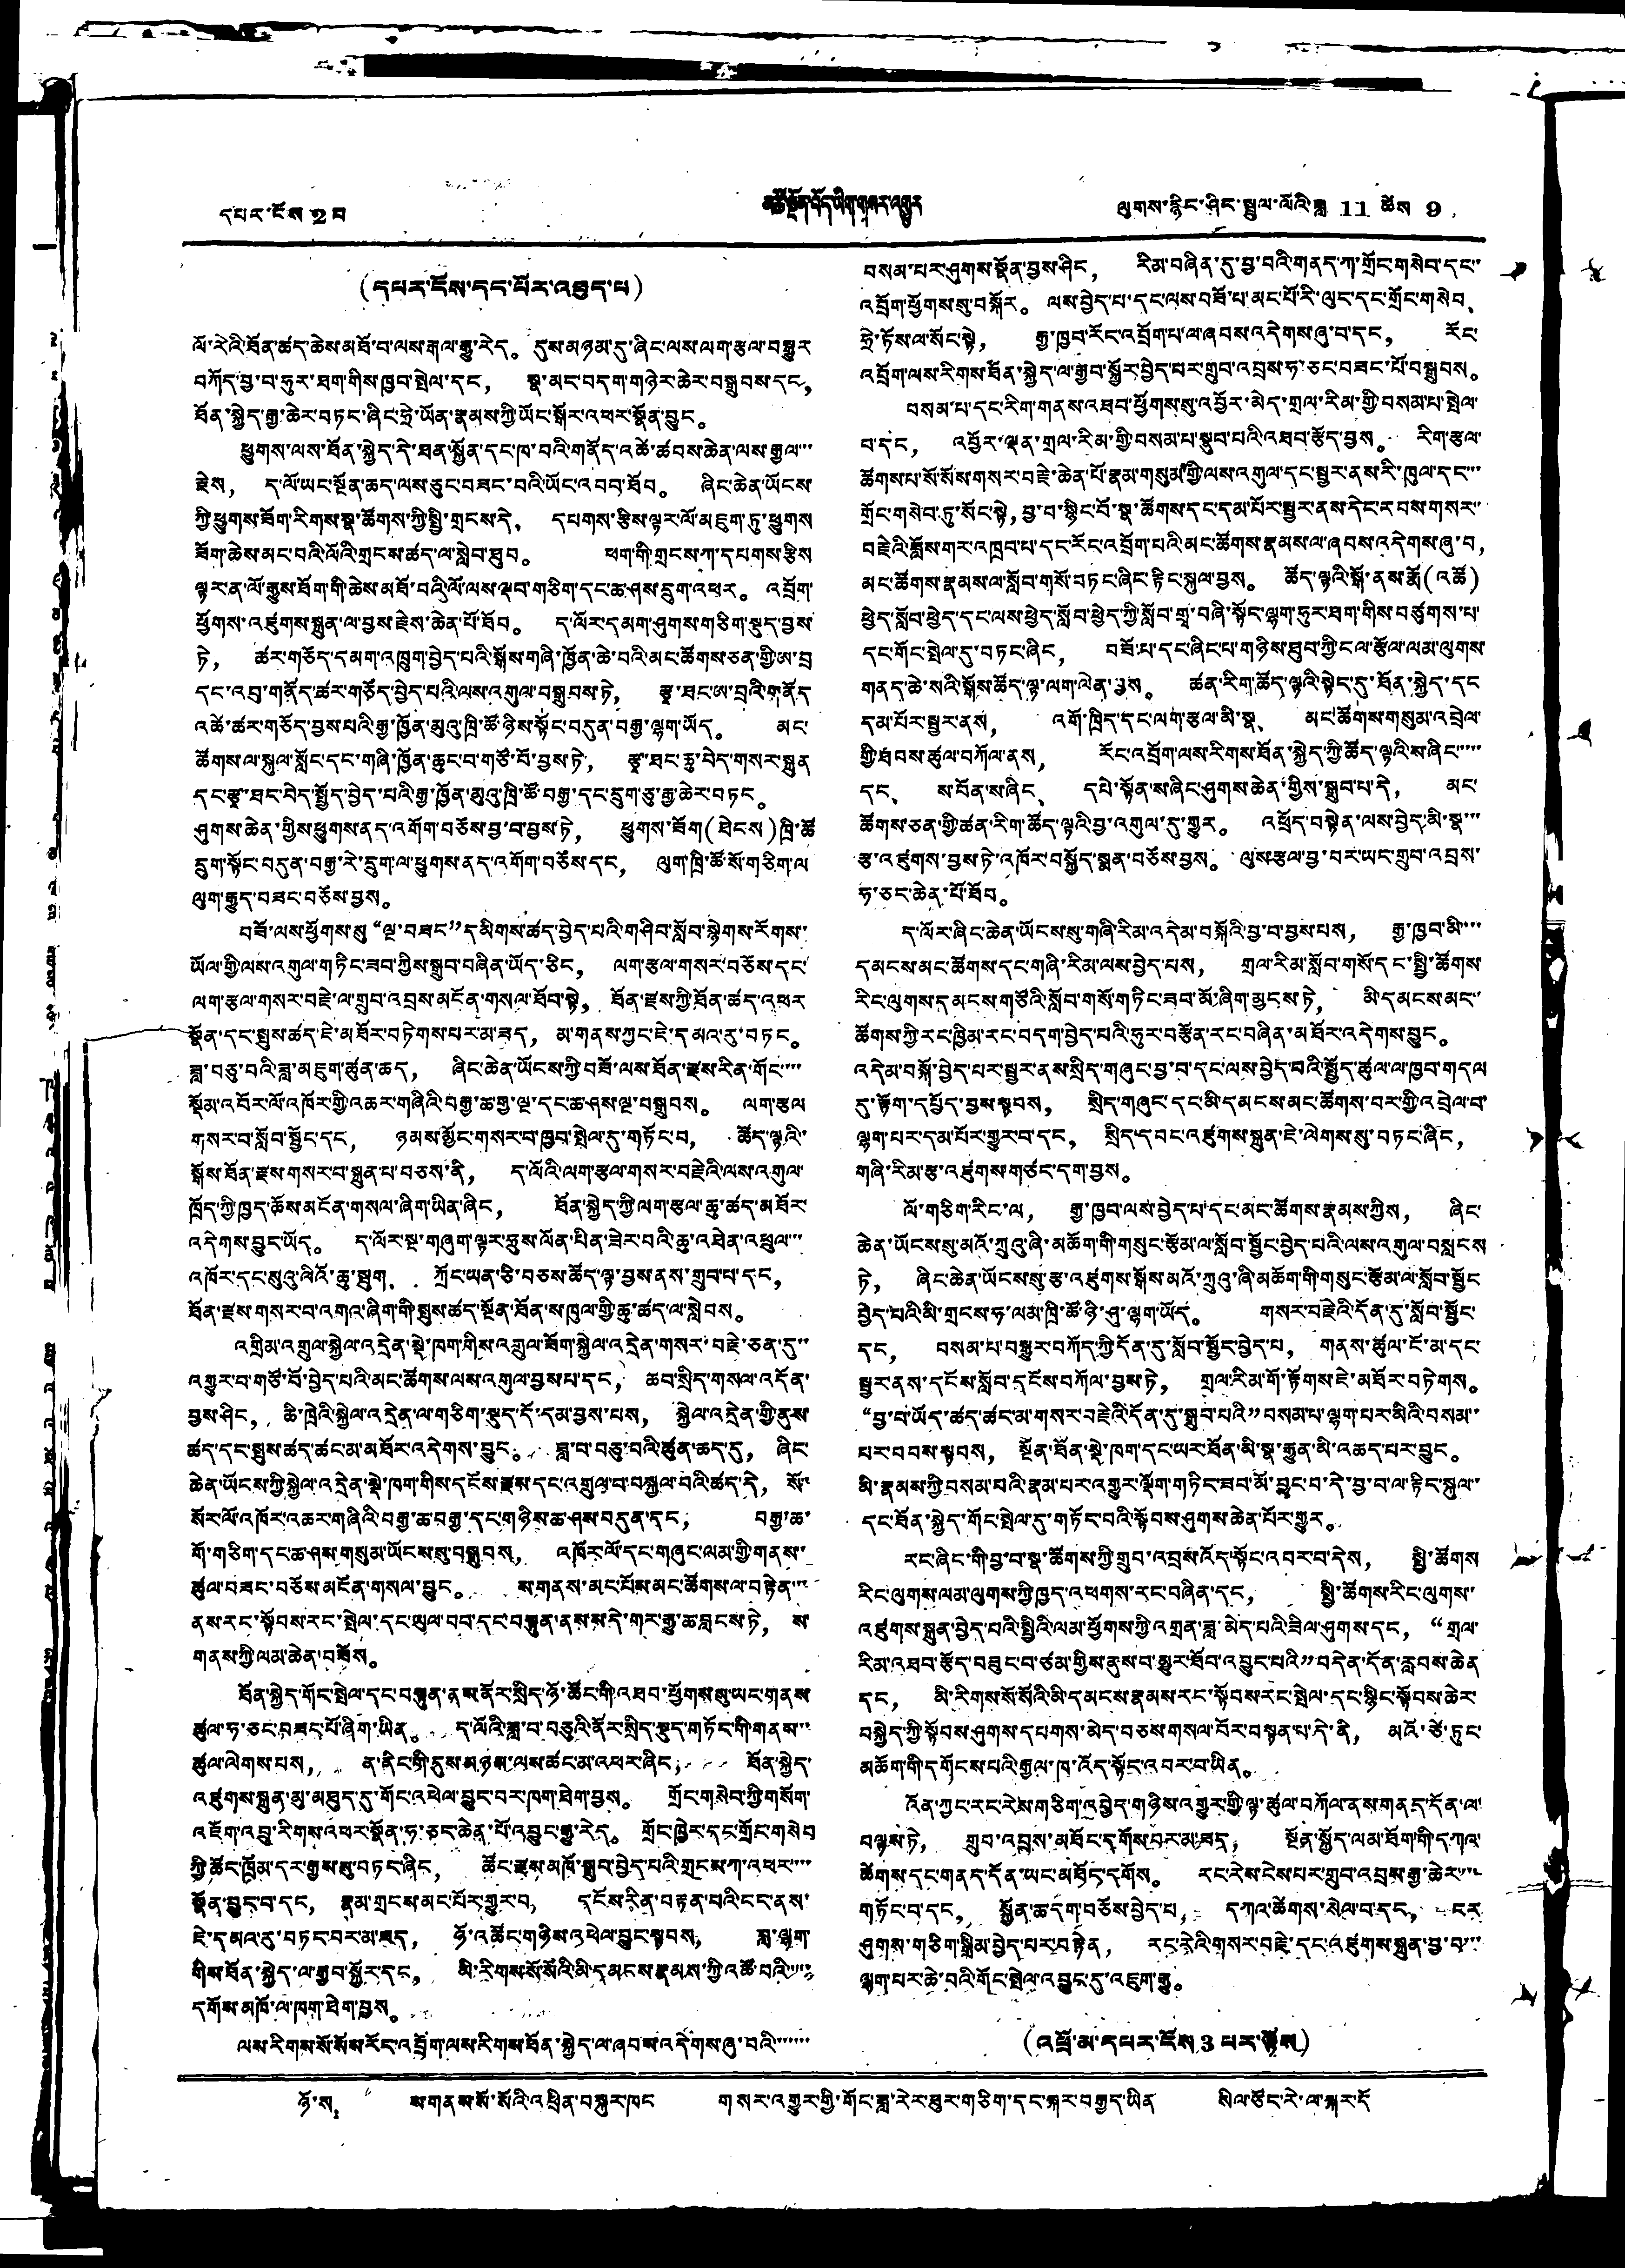དཔར་ངོས 2 པ མཚོ་སྔོན་བོད་ཡིག་གསར་འགྱུར ལུགས་རྙིང་ཤིང་སྤྲུལ་ལོའི་ཟླ 11 ཚེས 9
(དཔར་ངོས་དང་པོར་འཐུད་པ)
ལོ་རེའི་ཐོན་ཚད་ཆེས་མཐོ་བ་ལས་རྒལ་རྒྱུ་རེད。 དུས་མཉམ་དུ་ཞིང་ལས་ལག་རྩལ་བསྒྱུར
བཀོད་བྱ་བ་ཧུར་ཐག་གིས་ཁྱབ་སྤེལ་དང， སྣ་མང་བདག་གཉེར་ཆེར་བསྒྲུབས་དང，
ཐོན་སྐྱེད་རྒྱ་ཆེར་བཏང་ཞིང་ཧྲེ་ཡོན་རྣམས་ཀྱི་ཡོང་སྒོར་འཕར་སྣོན་བྱུང。
ཕྱུགས་ལས་ཐོན་སྐྱེད་དེ་ཐན་སྐྱོན་དང་ཁ་བའི་གནོད་འཚེ་ཚབས་ཆེན་ལས་རྒྱལ་་་
རྗེས， ད་ལོ་ཡང་སྔོན་ཆད་ལས་ཅུང་བཟང་བའི་ཡོང་འབབ་ཐོབ。 ཞིང་ཆེན་ཡོངས་
ཀྱི་ཕྱུགས་ཟོག་རིགས་སྣ་ཚོགས་ཀྱི་སྤྱི་གྲངས་དེ， དཔགས་རྩིས་ལྟར་ལོ་མཇུག་ཏུ་ཕྱུགས་
ཟོག་ཆེས་མང་བའི་ལོའི་གྲངས་ཚད་ལ་སླེབ་ཐུབ。 ཕག་གི་གྲངས་ཀ་དཔགས་རྩིས་
ལྟར་ན་ལོ་རྒྱུས་ཐོག་གི་ཆེས་མཐོ་བའི་ལོ་ལས་ལྡབ་གཅིག་དང་ཆ་ཤས་དྲུག་འཕར。 འབྲོག་
ཕྱོགས་འཛུགས་སྐྲུན་ལ་བྱས་རྗེས་ཆེན་པོ་ཐོབ。 ད་ལོར་དམག་ཤུགས་གཅིག་སྡུད་བྱས་
ཏེ， ཚར་གཅོད་དམག་འཁྲུག་བྱེད་པའི་སྒོས་གཞི་ཁྱོན་ཆེ་བའི་མང་ཚོགས་ཅན་གྱི་ཨ་བྲ་
དང་འབུ་གནོད་ཚར་གཅོད་བྱེད་པའི་ལས་འགུལ་བསྒྲུབས་ཏེ， རྩྭ་ཐང་ཨ་བྲའི་གནོད་
འཚེ་ཚར་གཅོད་བྱས་པའི་རྒྱ་ཁྱོན་མུའུ་ཁྲི་ཚོ་ཉིས་སྟོང་བདུན་བརྒྱ་ལྷག་ཡོད。 མང་
ཚོགས་ལ་སྐུལ་སློང་དང་གཞི་ཁྱོན་ཆུང་བ་གཙོ་བོ་བྱས་ཏེ， རྩྭ་ཐང་ཆུ་བེད་གསར་སྐྲུན་
དང་རྩྭ་ཐང་བེད་སྤྱོད་བྱེད་པའི་རྒྱ་ཁྱོན་མུའུ་ཁྲི་ཚོ་བརྒྱ་དང་དྲུག་ཅུ་རྒྱ་ཆེར་བཏང。
ཤུགས་ཆེན་གྱིས་ཕྱུགས་ནད་འགོག་བཅོས་བྱ་བ་བྱས་ཏེ， ཕྱུགས་ཟོག (ཐེངས) ཁྲི་ཚོ་
དྲུག་སྟོང་བདུན་བརྒྱ་རེ་དྲུག་ལ་ཕྱུགས་ནད་འགོག་བཅོས་དང， ལུག་ཁྲི་ཚོ་སོ་གཅིག་ལ་
ལུག་རྒྱུད་བཟང་བཅོས་བྱས。
བཟོ་ལས་ཕྱོགས་སུ“ལྔ་བཟང”དམིགས་ཚད་བྱེད་པའི་གཤིབ་སློབ་སྙེགས་རོགས་་
ཡོལ་གྱི་ལས་འགུལ་གཏིང་ཟབ་ཀྱིས་སྒྲུབ་བཞིན་ཡོད་ཅིང， ལག་རྩལ་གསར་བཅོས་དང་
ལག་རྩལ་གསར་བརྗེ་ལ་གྲུབ་འབྲས་མངོན་གསལ་ཐོབ་སྟེ， ཐོན་རྫས་ཀྱི་ཐོན་ཚད་འཕར
སྣོན་དང་སྤུས་ཚད་ཇེ་མཐོར་བཏེགས་པར་མ་ཟད， མ་གནས་ཀྱང་ཇེ་དམའ་རུ་བཏང。
ཟླ་བཅུ་བའི་ཟླ་མཇུག་ཚུན་ཆད， ཞིང་ཆེན་ཡོངས་ཀྱི་བཟོ་ལས་ཐོན་རྫས་རིན་གོང་་་་
སྡོམ་འབོར་ལོ་འཁོར་གྱི་འཆར་གཞིའི་བརྒྱ་ཆ་གྱ་ལྔ་དང་ཆ་ཤས་ལྔ་བསྒྲུབས。 ལག་རྩལ
གསར་བ་སློབ་སྦྱོང་དང， ཉམས་མྱོང་གསར་བ་ཁྱབ་སྤེལ་དུ་གཏོང་བ， ཚོད་ལྟའི་་
སྒོས་ཐོན་རྫས་གསར་བ་སྐྲུན་པ་བཅས་ནི， ད་ལོའི་ལག་རྩལ་གསར་བརྗེའི་ལས་འགུལ་
ཁྲོད་ཀྱི་ཁྱད་ཆོས་མངོན་གསལ་ཞིག་ཡིན་ཞིང， ཐོན་སྐྱེད་ཀྱི་ལག་རྩལ་ཆུ་ཚད་མཐོར་
འདེགས་བྱུང་ཡོད。 ད་ལོར་སྔ་གཞུག་ལྟར་ཧུས་ལོན་པིན་ཟེར་བའི་ཆུ་འཐེན་འཕྲུལ་་་
འཁོར་དང་སུའུ་ལིའོ་ཆུ་སྦུག， ཀྲོང་ཡན་ཅི་བཅས་ཚོད་ལྟ་བྱས་ནས་གྲུབ་པ་དང，
ཐོན་རྫས་གསར་བ་འགའ་ཞིག་གི་སྤུས་ཚད་སྔོན་ཐོན་ས་ཁུལ་གྱི་ཆུ་ཚད་ལ་སླེབས。
འགྲིམ་འགྲུལ་སྐྱེལ་འདྲེན་སྡེ་ཁག་གིས་འགྲུལ་ཟོག་སྐྱེལ་འདྲེན་གསར་བརྗེ་ཅན་དུ་་
འགྱུར་བ་གཙོ་བོ་བྱེད་པའི་མང་ཚོགས་ལས་འགུལ་བྱས་པ་དང， ཆབ་སྲིད་གསལ་འདོན་
བྱས་ཤིང， ཆི་ཁྲེའི་སྐྱེལ་འདྲེན་ལ་གཅིག་སྡུད་དོ་དམ་བྱས་པས， སྐྱེལ་འདྲེན་གྱི་ནུས་
ཚད་དང་སྤུས་ཚད་ཚང་མ་མཐོར་འདེགས་བྱུང。 ཟླ་བ་བཅུ་བའི་ཚུན་ཆད་དུ， ཞིང་
ཆེན་ཡོངས་ཀྱི་སྐྱེལ་འདྲེན་སྡེ་ཁག་གིས་དངོས་རྫས་དང་འགྲུལ་བ་བསྐྱལ་བའི་ཚད་དེ， སོ་
སོར་ལོ་འཁོར་འཆར་གཞིའི་བརྒྱ་ཆ་བརྒྱ་དང་གཉིས་ཆ་ཤས་བདུན་དང， བརྒྱ་ཆ་
གོ་གཅིག་དང་ཆ་ཤས་གསུམ་ཡོངས་སུ་བསྒྲུབས， འཁོར་ལོ་དང་གཞུང་ལམ་གྱི་གནས་
ཚུལ་བཟང་བཅོས་མངོན་གསལ་བྱུང。 ས་གནས་མང་པོས་མང་ཚོགས་ལ་བརྟེན་་་་
ནས་རང་སྟོབས་རང་སྤེལ་དང་ཡུལ་བབ་དང་བསྟུན་ནས་ས་དེ་གར་རྒྱུ་ཆ་བླངས་ཏེ， ས་
གནས་ཀྱི་ལམ་ཆེན་བཟོས。
ཐོན་སྐྱེད་གོང་སྤེལ་དང་བསྟུན་ནས་ནོར་སྲིད་ཉོ་ཚོང་གི་འཐབ་ཕྱོགས་སུ་ཡང་གནས་
ཚུལ་ཧ་ཅང་བཟང་པོ་ཞིག་ཡིན。 ད་ལོའི་ཟླ་བ་བཅུའི་ནོར་སྲིད་སྡུད་གཏོང་གི་གནས་་
ཚུལ་ལེགས་པས， ན་ནིང་གི་དུས་མཉམ་ལས་ཚང་མ་འཕར་ཞིང， ཐོན་སྐྱེད་
འཛུགས་སྐྲུན་མུ་མཐུད་དུ་གོང་འཕེལ་བྱུང་བར་ཁག་ཐེག་བྱས。 གྲོང་གསེབ་ཀྱི་གསོག་
འཇོག་འབྲུ་རིགས་འཕར་སྣོན་ཧ་ཅང་ཆེན་པོ་འབྱུང་རྒྱུ་རེད。 གྲོང་ཁྱེར་དང་གྲོང་གསེབ་
ཀྱི་ཚོད་ཁྲོམ་དར་རྒྱས་སུ་བཏང་ཞིང， ཚོང་རྫས་མཁོ་སྒྲུབ་བྱེད་པའི་གྲངས་ཀ་འཕར་་་་
སྣོན་བྱུང་བ་དང， རྣམ་གྲངས་མང་པོར་གྱུར་བ， དངོས་རིན་བརྟན་པའི་ངང་ནས་
ཇེ་དམའ་རུ་བཏང་བར་མ་ཟད， ཉོ་འཚོང་གཉིས་འཕེལ་བྱུང་སྟབས， བླ་ལྷག
གིས་ཐོན་སྐྱེད་ལ་རྒྱབ་སྐྱོར་དང， མི་རིགས་སོ་སོའི་མི་དམངས་རྣམས་ཀྱི་འཚོ་བའི་་་་་
དགོས་མཁོ་ལ་ཁག་ཐེག་བྱས。
ལས་རིགས་སོ་སོས་རོང་འབྲོག་ལས་རི་གས་ཐོན་སྐྱེད་ལ་ཞབས་འདེགས་ཞུ་བའི་་་་་་་
བསམ་པར་ཤུགས་སྣོན་བྱས་ཤིང， རིམ་བཞིན་དུ་བྱ་བའི་གནད་ཀ་གྲོང་གསེབ་དང་
འབྲོག་ཕྱོགས་སུ་བསྐོར。 ལས་བྱེད་པ་དང་ལས་བཟོ་པ་མང་པོ་རི་ལུང་དང་གྲོང་གསེབ、
ཧྲེ་ཏོས་ལ་སོང་སྟེ， རྒྱ་ཁྱབ་རོང་འབྲོག་པ་ལ་ཞབས་འདེགས་ཞུ་བ་དང， རོང་
འབྲོག་ལས་རིགས་ཐོན་སྐྱེད་ལ་རྒྱབ་སྐྱོར་བྱེད་པར་གྲུབ་འབྲས་ཧ་ཅང་བཟང་པོ་བསྒྲུབས。
བསམ་པ་དང་རིག་གནས་འཐབ་ཕྱོགས་སུ་འབྱོར་མེད་གྲལ་རིམ་གྱི་བསམ་པ་སྤེལ་
བ་དང， འབྱོར་ལྡན་གྲལ་རིམ་གྱི་བསམ་པ་སྣུབ་པའི་འཐབ་རྩོད་བྱས。 རིག་རྩལ་
ཚོགས་པ་སོ་སོས་གསར་བརྗེ་ཆེན་པོ་རྣམ་གསུམ་གྱི་ལས་འགུལ་དང་སྦྱར་ནས་རི་ཁུལ་དང་་་
གྲོང་གསེབ་ཏུ་སོང་སྟེ， བྱ་བ་སྙིང་པོ་སྣ་ཚོགས་དང་དམ་པོར་སྦྱར་ནས་དེང་རབས་གསར་་
བརྗེའི་ཟློས་གར་འཁྲབ་པ་དང་རོང་འབྲོག་པའི་མང་ཚོགས་རྣམས་ལ་ཞབས་འདེགས་ཞུ་བ，
མང་ཚོགས་རྣམས་ལ་སློབ་གསོ་བཏང་ཞིང་རྟིང་སྐུལ་བྱས。 ཚོད་ལྟའི་སྒོ་ནས་རྨོ(འཚོ)
ཕྱེད་སློབ་ཕྱེད་དང་ལས་ཕྱེད་སློབ་ཕྱེད་ཀྱི་སློབ་གྲྭ་བཞི་སྟོང་ལྷག་ཧུར་ཐག་གིས་བཙུགས་པ་
དང་གོང་སྤེལ་དུ་བཏང་ཞིང， བཟོ་པ་དང་ཞིང་པ་གཉིས་ཐུབ་ཀྱི་ངལ་རྩོལ་ལམ་ལུགས་
གནད་ཆེ་སའི་སྒོས་ཚོད་ལྟ་ལག་ལེན་བྱས。 ཚན་རིག་ཚོད་ལྟའི་སྟེང་དུ་ཐོན་སྐྱེད་དང
དམ་པོར་སྦྱར་ནས， འགོ་ཁྲིད་དང་ལག་རྩལ་མི་སྣ、 མང་ཚོགས་གསུམ་འབྲེལ་
གྱི་ཐབས་ཚུལ་བཀོལ་ནས， རོང་འབྲོག་ལས་རིགས་ཐོན་སྐྱེད་ཀྱི་ཚོད་ལྟའི་ས་ཞིང་་་་་
དང、 ས་བོན་ས་ཞིང、 དཔེ་སྟོན་སཞིང་ཤུགས་ཆེན་གྱིས་སྒྲུབ་པ་དེ， མང་
ཚོགས་ཅན་གྱི་ཚན་རིག་ཚོད་ལྟའི་བྱ་འགུལ་དུ་གྱུར。 འཕྲོད་བསྟེན་ལས་བྱེད་མི་སྣ་་་
རྩ་འཛུགས་བྱས་ཏེ་འཁོར་བསྐྱོད་སྨན་བཅོས་བྱས。 ལུས་རྩལ་བྱ་བར་ཡང་གྲུབ་འབྲས་
ཧ་ཅང་ཆེན་པོ་ཐོབ。
ད་ལོར་ཞིང་ཆེན་ཡོངས་སུ་གཞི་རིམ་འདེམ་བསྐོའི་བྱ་བ་བྱས་པས， རྒྱ་ཁྱབ་མི་་་་
དམངས་མང་ཚོགས་དང་གཞི་རིམ་ལས་བྱེད་པས， གྲལ་རིམ་སློབ་གསོ་དང་སྤྱི་ཚོགས་
རིང་ལུགས་དམངས་གཙོའི་སློབ་གསོ་གཏིང་ཟབ་མོ་ཞིག་མྱངས་ཏེ， མི་དམངས་མང་་
ཚོགས་ཀྱི་རང་ཁྱིམ་རང་བདག་བྱེད་པའི་ཧུར་བརྩོན་རང་བཞིན་མཐོར་འདེགས་བྱུང。
འདེམ་བསྐོ་བྱེད་པར་སྦྱར་ནས་སྲིད་གཞུང་བྱ་བ་དང་ལས་བྱེད་པའི་སྤྱོད་ཚུལ་ལ་ཁྱབ་གདལ
དུ་རྟོག་དཔྱོད་བྱས་སྟབས， སྲིད་གཞུང་དང་མི་དམངས་མང་ཚོགས་བར་གྱི་འབྲེལ་བ་
ལྷག་པར་དམ་པོར་གྱུར་བ་དང， སྲིད་དབང་འཛུགས་སྐྲུན་ཇེ་ལེགས་སུ་བཏང་ཞིང，
གཞི་རིམ་རྩ་འཛུགས་གཙང་དག་བྱས。
ལོ་གཅིག་རིང་ལ， རྒྱ་ཁྱབ་ལས་བྱེད་པ་དང་མང་ཚོགས་རྣམས་ཀྱིས， ཞིང་
ཆེན་ཡོངས་སུ་མའོ་ཀྲུའུ་ཞི་མཆོག་གི་གསུང་རྩོམ་ལ་སློབ་སྦྱོང་བྱེད་པའི་ལས་འགུལ་བསླངས
ཏེ， ཞིང་ཆེན་ཡོངས་སུ་རྩ་འཛུགས་སྒོས་མའོ་ཀྲུའུ་ཞི་མཆོག་གི་གསུང་རྩོམ་ལ་སློབ་སྦྱོང
བྱེད་པའི་མི་གྲངས་ཧ་ལམ་ཁྲི་ཚོ་ཉི་ཤུ་ལྷག་ཡོད。 གསར་བརྗེའི་དོན་དུ་སློབ་སྦྱོང་
དང， བསམ་པ་བསྒྱུར་བཀོད་ཀྱི་དོན་དུ་སློབ་སྦྱོང་བྱེད་པ， གནས་ཚུལ་ངོ་མ་དང་
སྦྱར་ནས་དངོས་སློབ་དངོས་བཀོལ་བྱས་ཏེ， གྲལ་རི་མ་གོ་རྟོགས་ཇེ་མཐོར་བཏེགས。
“བྱ་བ་ཡོད་ཚད་ཚང་མ་གསར་བརྗེའི་དོན་དུ་སྒྲུབ་པའི”བསམ་པ་ལྷག་པར་མིའི་བསམ་་
པར་བབས་སྟབས， སྔོན་ཐོན་སྡེ་ཁག་དང་ཡར་ཐོན་མི་སྣ་རྒྱུན་མི་འཆད་པར་བྱུང。
མི་རྣམས་ཀྱི་བསམ་པའི་རྣམ་པར་འགྱུར་ལྡོག་གཏིང་ཟབ་མོ་བྱུང་བ་དེ་བྱ་བ་ལ་རྟིང་སྐུལ་་
དང་ཐོན་སྐྱེད་གོང་སྤེལ་དུ་གཏོང་བའི་སྟོབས་ཤུགས་ཆེན་པོར་གྱུར。
རང་ཞིང་གི་བྱ་བ་སྣ་ཚོགས་ཀྱི་གྲུབ་འབྲས་འོད་སྟོང་འབར་བ་དེས， སྤྱི་ཚོགས
རིང་ལུགས་ལམ་ལུགས་ཀྱི་ཁྱད་འཕགས་རང་བཞིན་དང， སྤྱི་ཚོགས་རིང་ལུགས་
འཛུགས་སྐྲུན་བྱེད་པའི་སྤྱིའི་ལམ་ཕྱོགས་ཀྱི་འགྲན་ཟླ་མེད་པའི་ཟིལ་ཤུགས་དང， “གྲལ་
རིམ་འཐབ་རྩོད་བཟུང་བ་ཙམ་གྱིས་ནུས་བ་མྱུར་ཐོབ་འབྱུང་པའི”བདེན་དོན་རླབས་ཆེན་
དང， མི་རིགས་སོ་སོའི་མི་དམངས་རྣམས་རང་སྟོབས་རང་སྤེལ་དང་སྙིང་སྟོབས་ཆེར་
བསྐྱེད་ཀྱི་སྟོབས་ཤུགས་དཔགས་མེད་བཅས་གསལ་བོར་བསྟན་པ་དེ་ནི， མའོ་ཙེ་ཏུབ
མཆོག་གི་དགོངས་པའི་རྒྱལ་ཁ་འོད་སྟོང་འབར་བ་ཡིན。
འོན་ཀྱང་རང་རེས་གཅིག་འབྱེད་གཉིས་འགྱུར་གྱི་ལྟ་ཚུལ་བཀོལ་ནས་གནད་དོན་ལ་
བལྟས་ཏེ， གྲུབ་འབྲས་མཐོང་དགོས་པར་མ་ཟད， སྔོན་སྐྱོད་ལམ་ཐོག་གི་དཀལ་
ཚོགས་དང་གནད་དོན་ཡང་མཐོད་དགོས。 རང་རེས་ངེས་པར་གྲུབ་འབྲས་རྒྱ་ཆེར་་་་
གཏོང་བ་དང， སྐྱོན་ཆ་དག་བཅོས་བྱེད་པ， དཀའ་ཚེགས་སེལ་བ་དང， ངར་
ཤུགས་གཅིག་སྒྲིམ་བྱེད་པར་བརྟེན， རང་རེའི་གསར་བརྗེ་དང་འཛུགས་སྐྲུན་བྱ་བ་་་
ལྷག་པར་ཆེ་བའི་གོང་སྤེལ་འབྱུང་དུ་འཇུག་རྒྱུ。
(འཕྲོ་མ་དཔར་ངོས 3 པར་ལྟོས)
ཉོ་ས： ས་གནས་སོ་སོའི་འཕྲིན་བསྐུར་ཁང གསར་འགྱུར་གྱི་གོང་ཟླ་རེར་ཟུར་གཅིག་དང་སྐར་བརྒྱད་ཡིན སིལ་ཙོང་རེ་ལ་སྐར་དོ་
